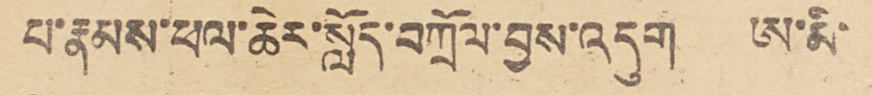པ་རྣམས་ཕལ་ཆེར་སློད་བཀྲོལ་བྱས་འདུག ཨ་མི་
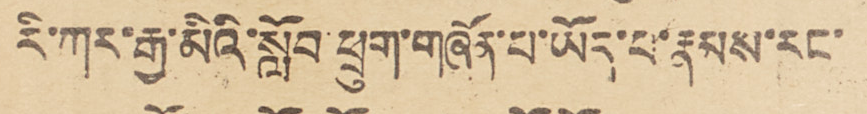རི་ཀར་རྒྱ་མིའི་སློབ་ཕྲུག་གཞོན་པ་ཡོད་པ་རྣམས་རང་
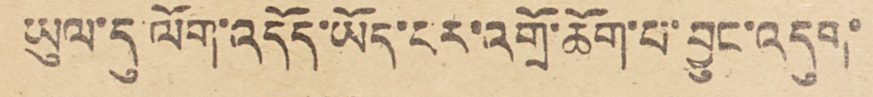ཡུལ་དུ་ལོག་འདོད་ཡོད་པར་འགྲོ་ཆོག་པ་བྱུང་འདུག་
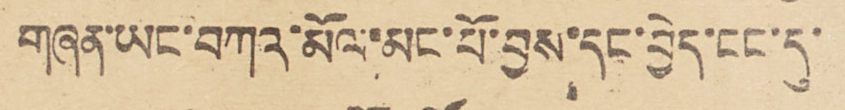གཞན་ཡང་བཀའ་མོལ་མང་པོ་བྱས་དང་བྱེད་ངང་དུ་
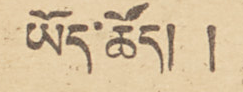ཡོད་ཆོད། །
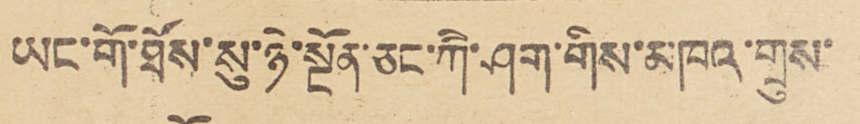ཡང་གོ་ཐོས་སུ་ཉེ་སྔོན་ཅང་ཀཻ་ཤག་གིས་མཁའ་གྲུས་
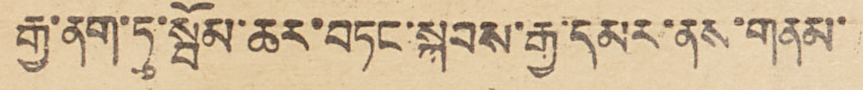རྒྱ་ནག་ཏུ་སྦོམ་ཆར་བཏང་སྐབས་རྒྱ་དམར་ནས་གནམ་
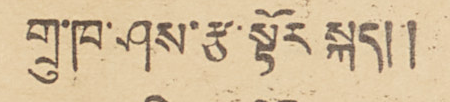གྲུ་ཁ་ཤས་རྩ་སྟོར་སྐད། །
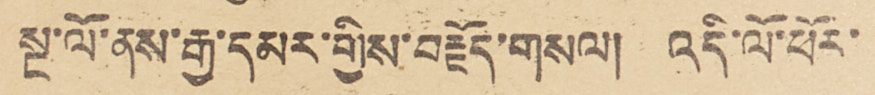སྔ་ལོ་ནས་རྒྱ་དམར་གྱིས་བརྗོད་གསལ། འདི་ལོ་ཕོར་
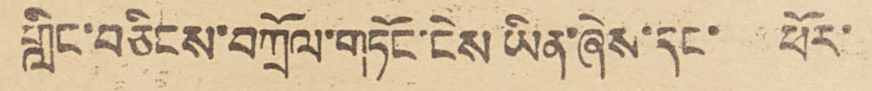གླིང་བཅིངས་བཀྲོལ་གཏོང་ངེས ཡིན་ཞེས་དང་ ཕོར་
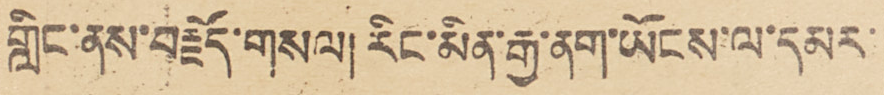གླིང་ནས་བརྗོད་གསལ། རིང་མིན་རྒྱ་ནག་ཡོངས་ལ་དམར་
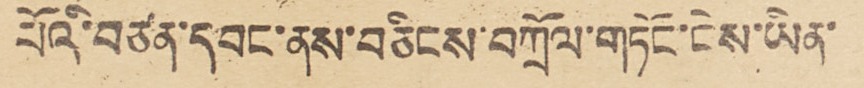པོའི་བཙན་དབང་ནས་བཅིངས་བཀྲོལ་གཏོང་ངེས་ཡིན་
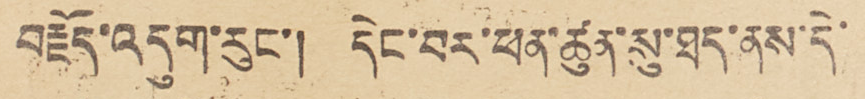བརྗོད་འདུག་རུང་། དེང་བར་ཕན་ཚུན་སུ་ཐད་ནས་དེ་
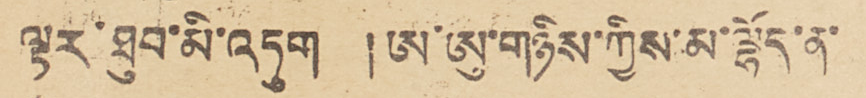ལྟར་ཐུབ་མི་འཏུག །ཨ་ཨུ་གཉིས་ཀྱིས་མ་ལྷོད་ན་
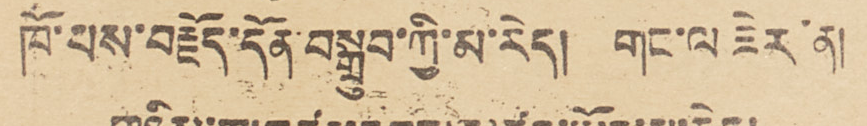ཁོ་པས་བརྗོད་དོན་བསྒྲུབ་ཀྱི་མ་རེད། གང་ལ ཟེར་ན།
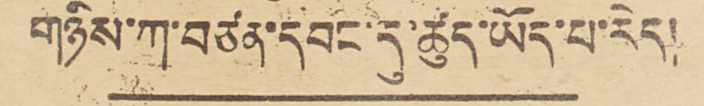གཉིས་ཀ་བཙན་དབང་དུ་ཚུད་ཡོད་པ་རེད།
